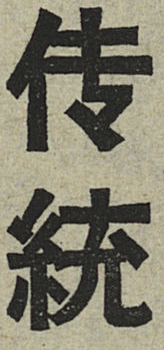传統
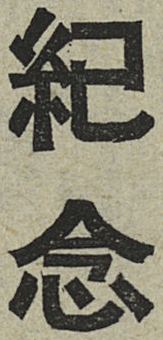紀念
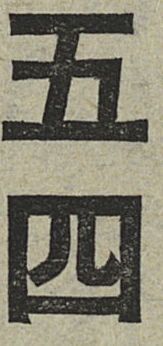五四
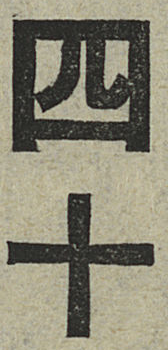四十
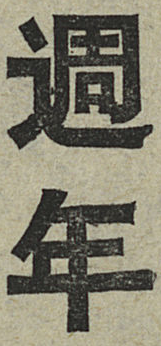週年
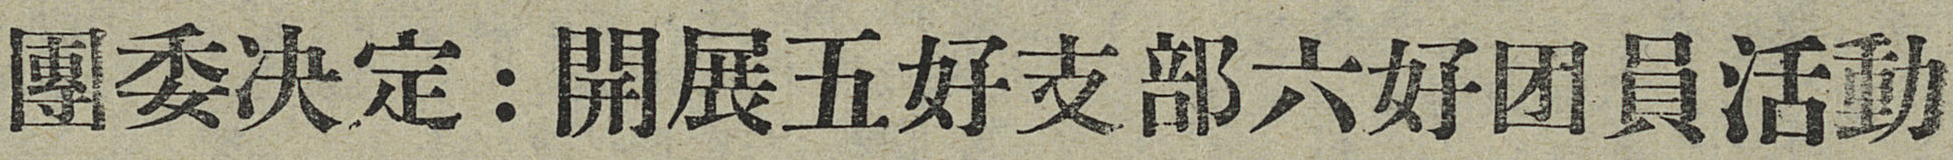團委决定：開展五好支部六好团員活動
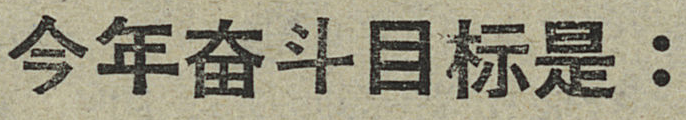今年奋斗目标是：
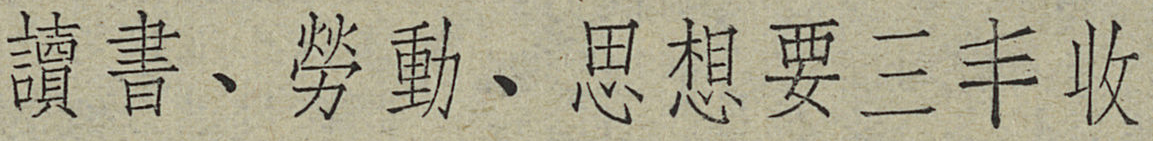讀書、勞動、思想要三丰收
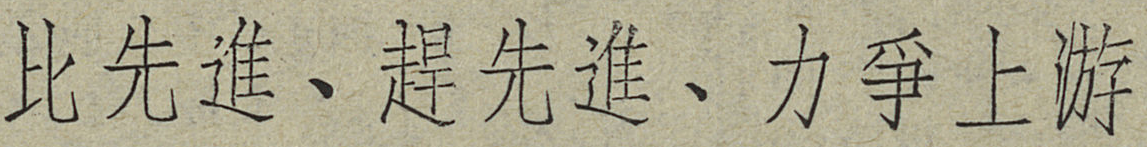比先進、趕先進、力爭上游
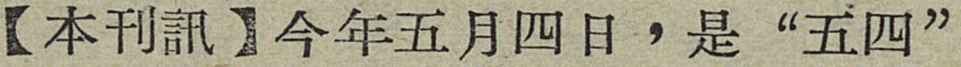【本刊訊】今年五月四日，是“五四”
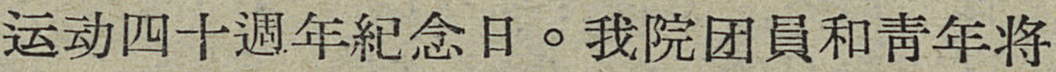运动四十週年紀念日。我院团員和靑年將
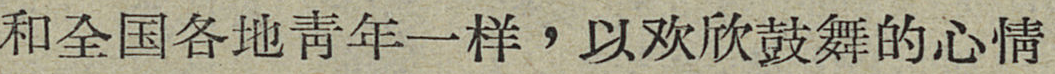和全国各地靑年一样，以欢欣鼓舞的心情
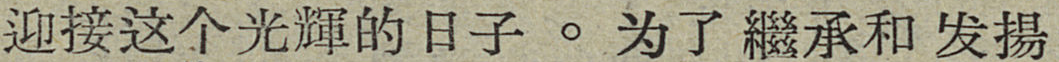迎接这个光輝的日子。为了 繼承和 发揚
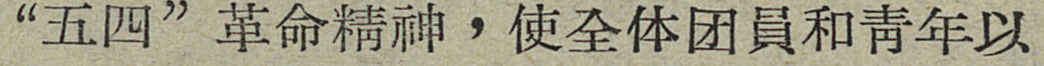“五四”革命精神，使全体团員和靑年以
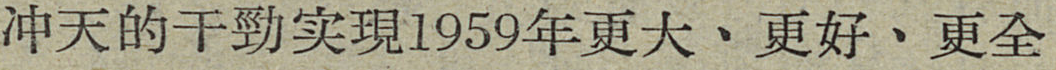冲天的干勁实現1959年更大、更好、更全
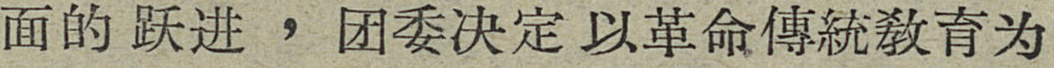面的跃进，团委决定以革命傳統敎育为
